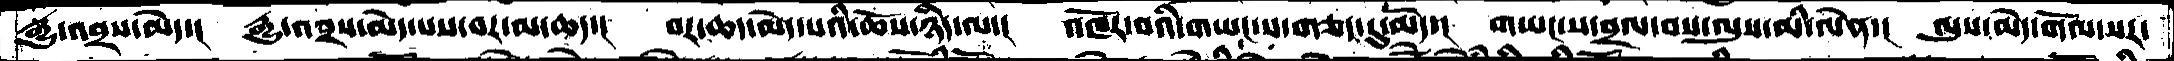རྒྱུ་འབྲས་མེད་།  རྒྱུ་འབྲས་མེད་པས་བར་མ་ཆད་།  བར་ཆད་མེད་པའི་ཆོས་ཉིད་ལ་།  འཁོར་བའི་གཡང་ས་གཅད་དུ་མོད་།  གཡང་ས་བྲལ་བས་ལུས་མི་ལེན་།  ལུས་མེད་གོལ་སར་
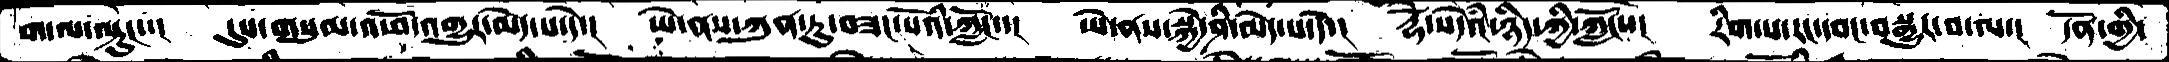ག་ལ་ལྟུང་་།  དུས་གསུམ་འཕོ་འགྱུར་མེད་པ་དེ་།  ཡེ་ནས་ཀུན་ཏུ་བཟང་པོའི་ཀློང་་།  ཡེ་ནས་སྐྱེ་ཤི་མེད་པ་དེ་།  རྡོེ་སེདཾའ་ཉིད་ཀྱི་ཀློང་་།  རིག་པ་རང་དབང་བསྒྱུར་བ་ལ་།  དོན་གྱི་
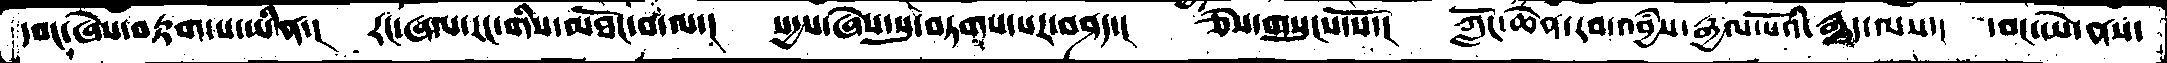དབང་ཞེས་བརྟག་པ་ཡིན་།  རང་ཞལ་རང་གིས་མཐོང་བ་ལ་།  སདྱས་ཞེས་སུ་བཏགས་པར་བཤད་།   ཅེས་གསུངས་སོ་།   ཀློང་ཆེན་རབ་འབྱཾས་རྒྱལ་པོའི་རྒྱུད་ལས་།  དབང་ཡེ་ནས་
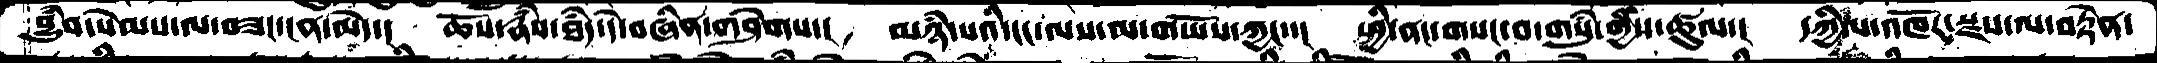བྱུཾབ་སེམས་ལ་བཟང་ངན་མེད་།  ཆོས་རྣཾས་ཐཾད་དེ་བཞིན་གཤེགས་།  མཉཾ་པའི་ངང་ལས་མ་གཡོས་ཀྱང་་།  ཕྱི་ནང་གསང་བ་གསུཾ་གྱིས་ཚུལ་།  དཀྱིལ་འཁོར་སྫས་ལ་བརྟེན་
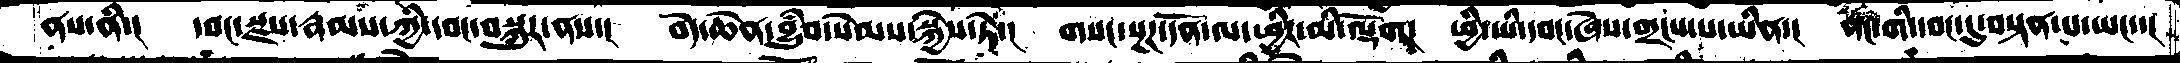ནས་ནི་།  དབང་སྫས་རྣམས་ཀྱི་དབང་བསྐུར་ནས་།  བདེ་ཆེན་བྱུཾབ་སེམས་སྐྱེས་ཏེ་།  གསང་སྔཌ་དོན་ལ་ཕྱིར་མི་ལྡོག།  ཕྱི་ཡི་དབང་ཞེས་གྲངས་པ་ཡིན་། ནང་གི་དབང་དུ་བསྟན་པ་ཡང་་།
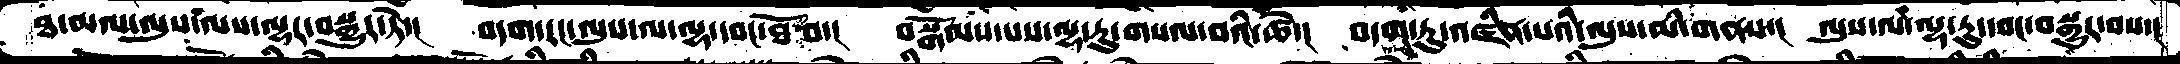ཐ་མལ་ལུས་ལས་ལྷར་བསྒྱུར་ཏེ་།  བདག་རང་ལུས་ལ་ལྷ་དབང་ཐོབ་།  བསྒོམས་པས་ལྷ་རུ་གསལ་བའི་ཚེ་།  བདག་ཏུ་འཛིན་པའི་ལུས་མི་གནས་།  ལུས་ལ་ལྷ་རུ་དབང་བསྒྱུར་བས་།
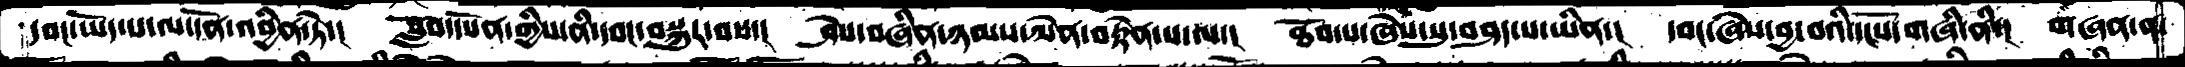དབང་ཡོད་པ་ལ་དོན་འབྱིན་ཏེ་།  སློབ་དཔོན་གྱིས་ནི་དབང་བསྐུར་བས་།  ཤེས་བཞིན་ཉམས་ལེན་བརྟེན་པ་ལ་།  ཐོབ་པ་ཞེས་སུ་བཤད་པ་ཡིན་།  དབང་ཞེས་བྱ་བའི་དངོས་གཞི་ནི་།  གཞན་ན་
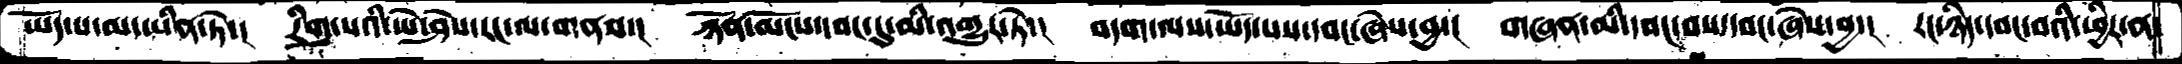ཡོད་པ་མ་ཡིན་ཏེ་།  རིག་པའི་ཡེ་ཤེས་ངང་ལ་གནས་།  ཉོན་མོངས་དབང་དུ་མི་འགྱུར་ཏེ་།  བདག་ལས་ཡོད་པས་དབང་ཞེས་བྱ་།  གཞན་མི་དབང་བས་དབང་ཞེས་བྱ་།  རང་ཉིད་དབང་བའི་ཕྱིར་ན་
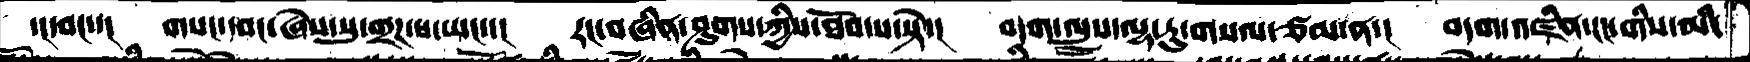་།དབང་་།  གསང་དབང་ཞེས་སུ་གྲཌ་པ་ཡང་་།  རང་བཞིན་ཤུགས་ཀྱིས་ཐོབ་པ་སྟེ་།  བདག་ལུས་ལྷ་རུ་གསལ་ཙམ་ན་།  བདག་འཛིན་ངང་གིས་མི་
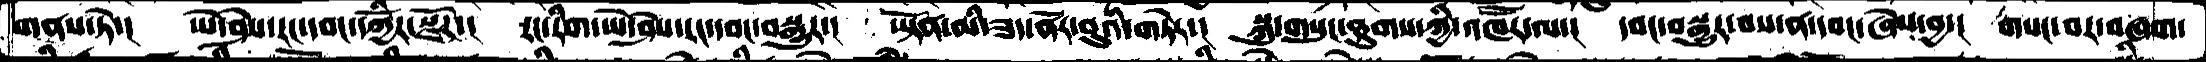གནས་ཏེ་།   ཡེ་ཤེས་རང་དབང་དཀྱོིར་སྫོཌ་།  རང་རིག་ཡེ་ཤེས་རང་དབང་བསྒྱུར་།   ཡྟོན་མི་ཟད་ནོར་བུའི་གཏེར་།  སྐུ་གསུང་ཐུགས་ཀྱི་འཁཽར་ལ་།  དབང་བསྒྱུར་བས་ན་དབང་ཞེས་བྱ་།  གསང་བར་བཞག་
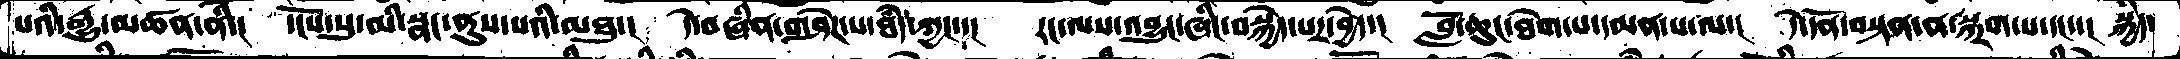པའི་རྒྱུ་མཚན་ནི་།   དངོས་སུ་མི་སྣང་ནུས་པའི་མཐུ་།  དེ་བཞིན་གཤེཌ་པ་ཐཾད་ཀྱང་་།  རང་ལས་འབྱུང་ཞིང་བསྐྱེད་པར་བྱེད་།  བློ་ཆུང་ཐེག་པ་དམན་པ་ལ་།  དེ་དོན་བསྟན་ན་སྐྲག་པ་དང་་། སྐྱིད་
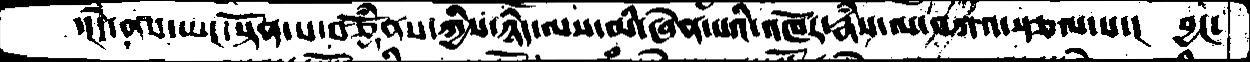་།དེ་ནས་ཡང་སྟོན་པ་བཅྡོཾནས་ཀྱིས་ཉིད་ལས་མི་ཞེན་པའི་འཁོར་རྣཾས་ལ་བཀའ་སྩལ་པ་།   བྱང་
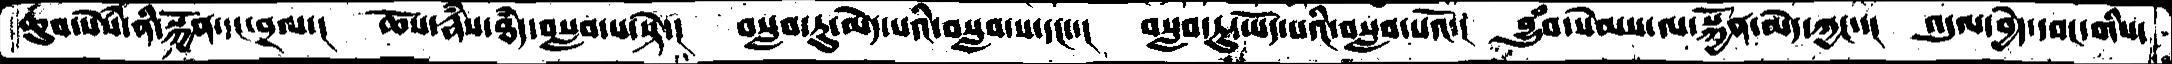ཆུབ་སེཾས་ནི་སྐྱོན་དང་བྲལ་།  ཆོས་རྣཾས་ཐཾད་བསླབ་པ་སྟེ་།  བསླབ་ཏུ་མེད་པའི་བསླབ་པ་དང་་།  བསླབ་ཏུ་ཡོད་པའི་བསླབ་པའོ་།  བྱུཾབ་སེམས་ལ་སྐྱོན་མེད་ཀྱང་་།  འདུལ་བྱེད་དབང་གིས་
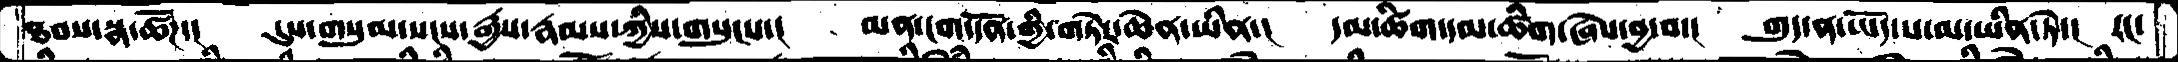ཐབས་སྣ་ཚོཌ་།  དུས་གསུམ་སངས་རྒྱས་རྣམས་ཀྱིས་གསུངས་།   མན་ངག་དོན་གྱི་གཏེར་ཆེན་ཡིན་།   དམ་ཚིག་དམ་ཚིག་ཞེས་བྱ་བ་།   གུད་ན་ཡོད་པ་མ་ཡིན་ཏེ་།  རང་
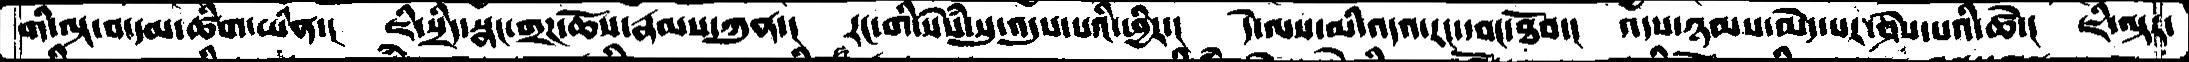གི་ལྟ་བ་དམ་ཚིག་ཡིན་།   ཇི་སྲིད་སྣང་གྲཌ་ཆོས་རྣམས་ཀུན་།  རང་གི་སེསཾ་སུ་འདུས་པའི་ཕྱིར་།  དེ་ལས་མི་འདའ་རང་དབང་ཐོབ་།  འདས་ཉམས་མེད་པར་ཤེས་པའི་ཚེ་།  ཇི་ལྟར་
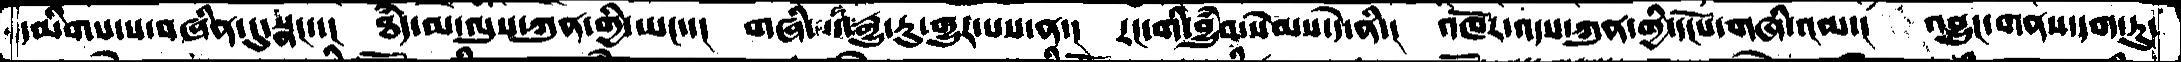དམིགས་པ་བཞིན་དུ་སྣང་་།   ཐཾད་མ་ལུས་ཀུན་གྱི་ཡང་་།   གཞི་སའི་རྒྱུ་རུ་གྱུར་པས་ན་།  རང་གི་བྱུཾབ་སེམས་དེ་ནི་།  འཁོར་འདས་ཀུན་གྱི་དངོས་གཞི་འམ་།  འབྱུང་གནས་དག་ཏུ་
